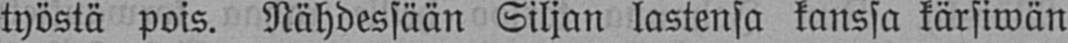työstä pois. Nähdessään Siljan lastensa kanssa kärsiwän
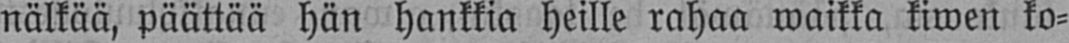nälkää, päättää hän hankkia heille rahaa waikka kiwen ko-
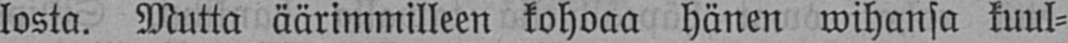losta. Mutta äärimmilleen kohoaa hänen wihansa kuul-
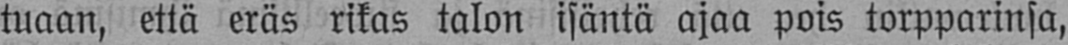tuaan, että eräs rikas talon isäntä ajaa pois torpparinsa,
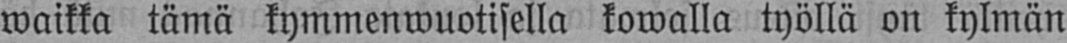waikka tämä kymmenwuotisella kowalla työllä on kylmän
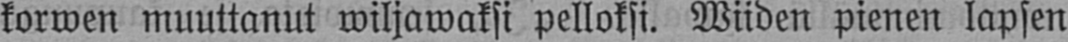korwen muuttanut wiljawaksi pelloksi. Wiiden pienen lapsen
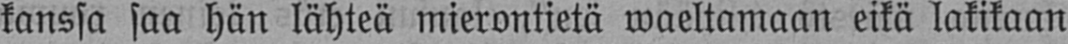kanssa saa hän lähteä mierontietä waeltamaan eikä lakikaan
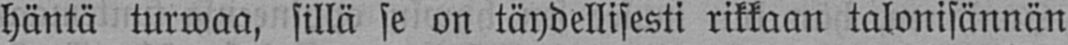häntä turwaa, sillä se on täydellisesti rikkaan talonisännän
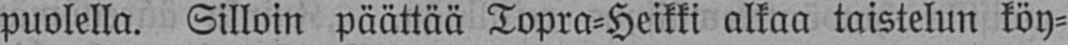puolella. Silloin päättää Topra-Heikki alkaa taistelun köy-
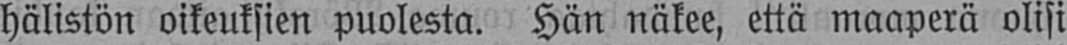hälistön oikeuksien puolesta. Hän näkee, että maaperä olisi
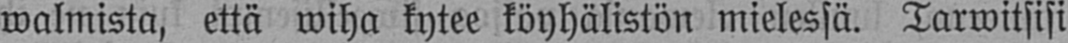walmista, että wiha kytee köyhälistön mielessä. Tarwitsisi
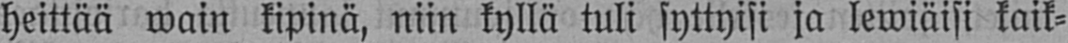heittää wain kipinä, niin kyllä tuli syttyisi ja lewiäisi kaik-
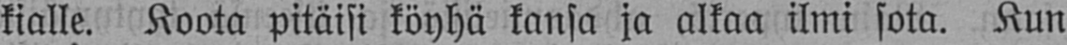kialle. Koota pitäisi köyhä kansa ja alkaa ilmi sota. Kun
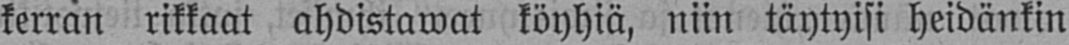kerran rikkaat ahdistawat köyhiä, niin täytyisi heidänkin
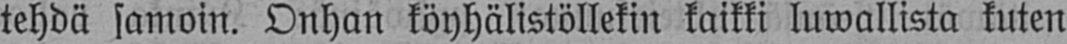tehdä samoin. Onhan köyhälistöllekin kaikki luwallista kuten
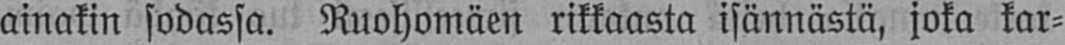ainakin sodassa. Ruohomäen rikkaasta isännästä, joka kar-
